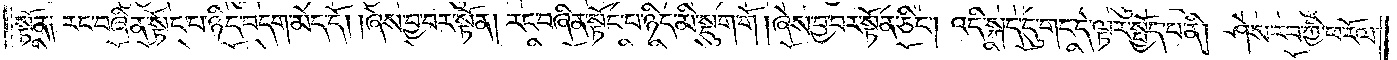སྟོན༑ རང་བཞིན་སྟོང་པ་ཉིད་བདག་མེད་དོ། །ཞེས་བྱ་བར་སྟོན། རང་བཞིན་སྟོང་པ་ཉིད་མི་སྡུག་གོ། ཞེས་བྱ་བར་སྟོན་ཅིང༌། འདི་སྐད་དུ་གང་དེ་ལྟར་སྤྱོད་པ་ནི། ཤེས་རབ་ཀྱི་ཕ་རོལ་
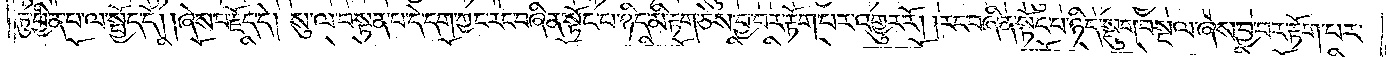ཏུ་ཕྱིན་པ་ལ་སྤྱོད་དོ། །ཞེས་བརྗོད་དེ། སུ་ལ་བསྟན་པ་དེ་དག་ཀྱང་རང་བཞིན་སྟོང་པ་ཉིད་མི་རྟག་ཅེས་བྱ་བར་རྟོག་པར་འགྱུར་རོ། །རང་བཞིན་སྟོང་པ་ཉིད་སྡུག་བསྔལ་ཞེས་བྱ་བར་རྟོག་པར་
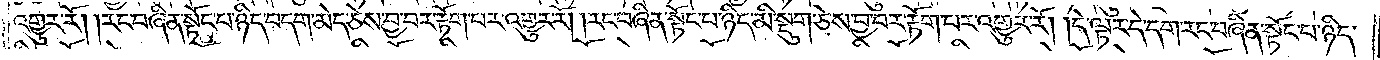འགྱུར་རོ། །རང་བཞིན་སྟོང་པ་ཉིད་བདག་མེད་ཅེས་བྱ་བར་རྟོག་པར་འགྱུར་རོ། །རང་བཞིན་སྟོང་པ་ཉིད་མི་སྡུག་ཅེས་བྱ་བར་རྟོག་པར་འགྱུར་རོ། །དེ་ལྟར་དེ་དག་རང་བཞིན་སྟོང་པ་ཉིད་
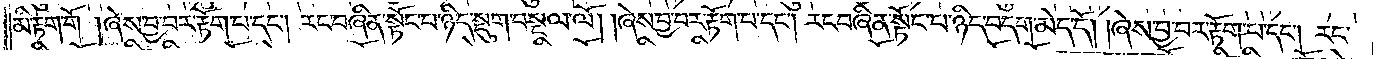མི་རྟག་གོ །ཞེས་བྱ་བར་རྟོག་པ་དང༌། རང་བཞིན་སྟོང་པ་ཉིད་སྡུག་བསྔལ་ལོ། །ཞེས་བྱ་བར་རྟོག་པ་དང༌། རང་བཞིན་སྟོང་པ་ཉིད་བདག་མེད་དོ། །ཞེས་བྱ་བར་རྟོག་པ་དང༌། རང་
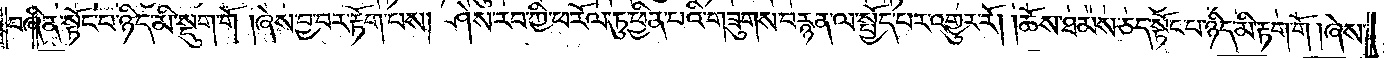བཞིན་སྟོང་པ་ཉིད་མི་སྡུག་གོ། ཞེས་བྱ་བར་རྟོག་པས། ཤེས་རབ་ཀྱི་ཕ་རོལ་ཏུ་ཕྱིན་པའི་གཟུགས་བརྙན་ལ་སྤྱོད་པར་འགྱུར་རོ། །ཆོས་ཐམས་ཅད་སྟོང་པ་ཉིད་མི་རྟག་གོ། ཞེས་
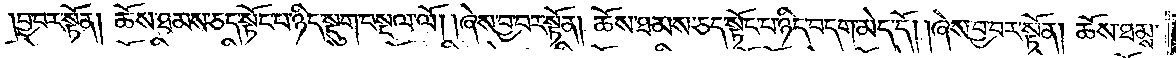བྱ་བར་སྟོན། ཆོས་ཐམས་ཅད་སྟོང་པ་ཉིད་སྡུག་བསྔལ་ལོ། །ཞེས་བྱ་བར་སྟོན། ཆོས་ཐམས་ཅད་སྟོང་པ་ཉིད་བདག་མེད་དོ། །ཞེས་བྱ་བར་སྟོན། ཆོས་ཐམས་
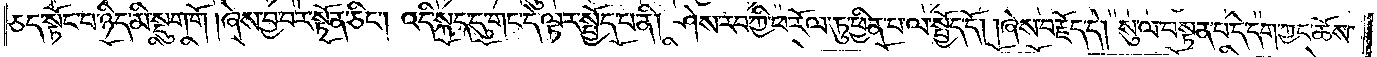ཅད་སྟོང་པ་ཉིད་མི་སྡུག་གོ། ཞེས་བྱ་བར་སྟོན་ཅིང༌། འདི་སྐད་དུ་གང་དེ་ལྟར་སྤྱོད་པ་ནི། ཤེས་རབ་ཀྱི་ཕ་རོལ་ཏུ་ཕྱིན་པ་ལ་སྤྱོད་དོ། །ཞེས་བརྗོད་དེ། སུ་ལ་བསྟན་པ་དེ་དག་ཀྱང་ཆོས་
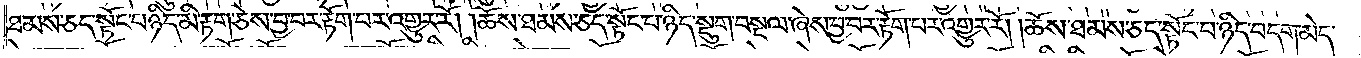ཐམས་ཅད་སྟོང་པ་ཉིད་མི་རྟག་ཅེས་བྱ་བར་རྟོག་པར་འགྱུར་རོ། །ཆོས་ཐམས་ཅད་སྟོང་པ་ཉིད་སྡུག་བསྔལ་ཞེས་བྱ་བར་རྟོག་པར་འགྱུར་རོ། །ཆོས་ཐམས་ཅད་སྟོང་པ་ཉིད་བདག་མེད་
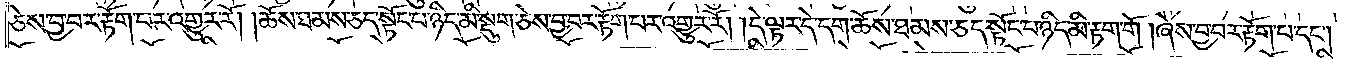ཅས་བྱ་བར་རྟོག་པར་འགྱུར་རོ། །ཆོས་ཐམས་ཅད་སྟོང་པ་ཉིད་མི་སྡུག་ཅེས་བྱ་བར་རྟོག་པར་འགྱུར་རོ། །དེ་ལྟར་དེ་དག་ཆོས་ཐམས་ཅད་སྟོང་པ་ཉིད་མི་རྟག་གོ །ཞེས་བྱ་བར་རྟོག་པ་དང༌།
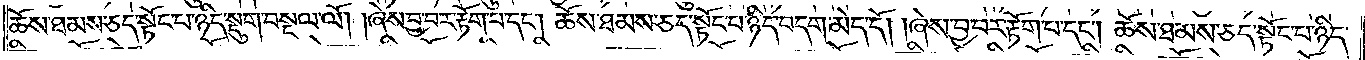ཆོས་ཐམས་ཅད་སྟོང་པ་ཉིད་སྡུག་བསྔལ་ལོ། །ཞེས་བྱ་བར་རྟོག་པ་དང༌། ཆོས་ཐམས་ཅད་སྟོང་པ་ཉིད་བདག་མེད་དོ། །ཞེས་བྱ་བར་རྟོག་པ་དང༌། ཆོས་ཐམས་ཅད་སྟོང་པ་ཉིད་
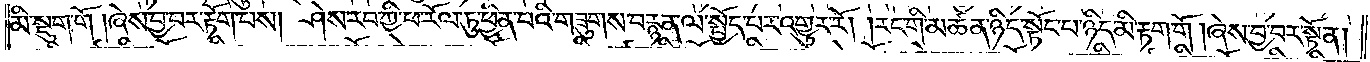མི་སྡུག་གོ །ཞེས་བྱ་བར་རྟོག་པས། ཤེས་རབ་ཀྱི་ཕ་རོལ་ཏུ་ཕྱིན་པའི་གཟུགས་བརྙན་ལ་སྤྱོད་པར་འགྱུར་རོ། །རང་གི་མཚན་ཉིད་སྟོང་པ་ཉིད་མི་རྟག་གོ །ཞེས་བྱ་བར་སྟོན།
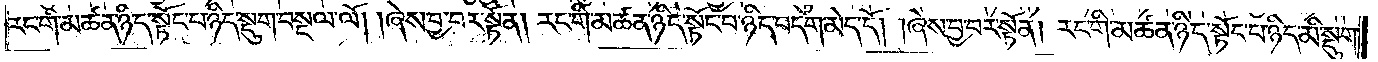རང་གི་མཚན་ཉིད་སྟོང་པ་ཉིད་སྡུག་བསྔལ་ལོ། །ཞེས་བྱ་བར་སྟོན། རང་གི་མཚན་ཉིད་སྟོང་པ་ཉིད་བདག་མེད་དོ། །ཞེས་བྱ་བར་སྟོན། རང་གི་མཚན་ཉིད་སྟོང་པ་ཉིད་མི་སྡུག་
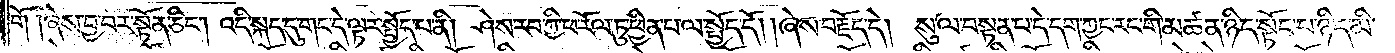གོ །ཞེས་བྱ་བར་སྟོན་ཅིང༌། འདི་སྐད་དུ་གང་དེ་ལྟར་སྤྱོད་པ་ནི། ཤེས་རབ་ཀྱི་ཕ་རོལ་ཏུ་ཕྱིན་པ་ལ་སྤྱོད་དོ། །ཞེས་བརྗོད་དེ། སུ་ལ་བསྟན་པ་དེ་དག་ཀྱང་རང་གི་མཚན་ཉིད་སྟོང་པ་ཉིད་མི་
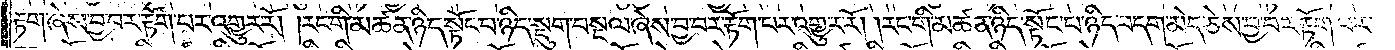རྟག་ཞེས་བྱ་བར་རྟོག་པར་འགྱུར་རོ། །རང་གི་མཚན་ཉིད་སྟོང་པ་ཉིད་སྡུག་བསྔལ་ཞེས་བྱ་བར་རྟོག་པར་འགྱུར་རོ། །རང་གི་མཚན་ཉིད་སྟོང་པ་ཉིད་བདག་མེད་ཅེས་བྱ་བར་རྟོག་པར་
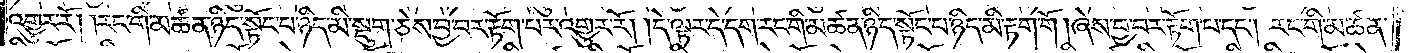འགྱུར་རོ། །རང་གི་མཚན་ཉིད་སྟོང་པ་ཉིད་མི་སྡུག་ཅེས་བྱ་བར་རྟོག་པར་འགྱུར་རོ། །དེ་ལྟར་དེ་དག་རང་གི་མཚན་ཉིད་སྟོང་པ་ཉིད་མི་རྟག་གོ །ཞེས་བྱ་བར་རྟོག་པ་དང༌། རང་གི་མཚན་
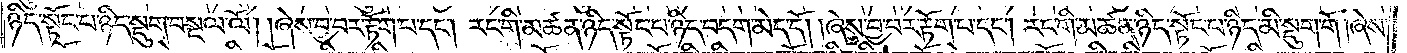ཉིད་སྟོང་པ་ཉིད་སྡུག་བསྔལ་ལོ། །ཞེས་བྱ་བར་རྟོག་པ་དང༌། རང་གི་མཚན་ཉིད་སྟོང་པ་ཉིད་བདག་མེད་དོ། །ཞེས་བྱ་བར་རྟོག་པ་དང༌། རང་གི་མཚན་ཉིད་སྟོང་པ་ཉིད་མི་སྡུག་གོ །ཞེས་
